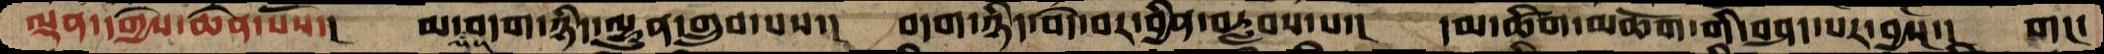ལྡན་དགྱེས་ཆེན་པོས་། མ་འདས་བདག་ཉིད་ལྷུན་གྲུབ་པས་། བདག་ཉིད་བདེ་བར་བྱིན་བརླབས་པ་། དམ་ཚིག་མཆོག་གི་བཤད་པར་བྱས་། གང་
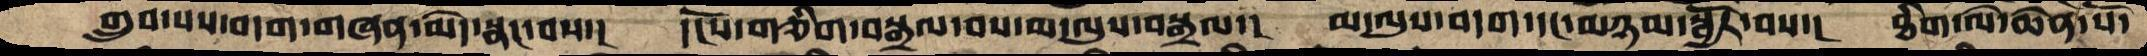གྲུབ་པས་བདག་གཞན་མེད་སྣང་བས་།  དངོས་གཅིག་བསྒྲལ་བས་མ་ལུས་བསྒྲལ་།  མ་ལུས་བདག་དང་མཉམ་སྦྱོར་བས་།  ཐིག་ལེ་ཆེན་པོ་
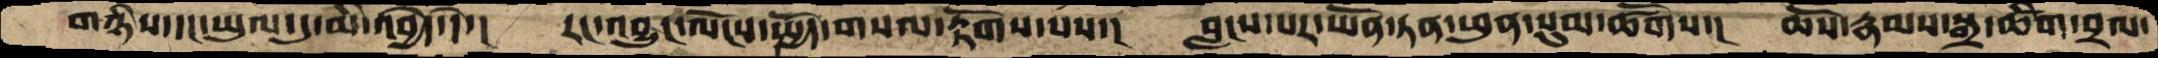གཉིས་དང་ཡུལ་དུ་མི་འབྱདེ་དེ་།   རང་འབྱུང་ལོངས་སྤྱོད་གསལ་རྟོགས་པས་།   བླངས་པར་ཡོན་ཏན་ཕུན་སུམ་ཚོགས་།  ཆོས་རྣམས་སྒྲ་ཚིག་བྲལ་
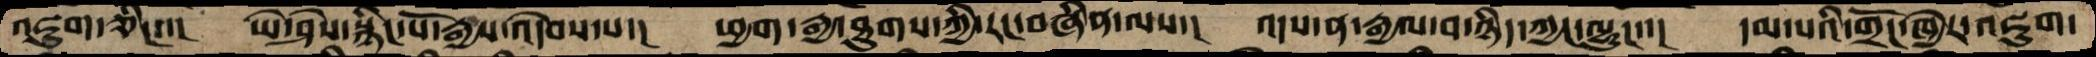འཇུག་ཅིང་་།  ཡེ་ཤེས་སྙིང་པོ་རྒྱས་འདེབས་པ་།  ཕྱག་རྒྱ་ཐུགས་ཀྱི་རང་བཞིན་ལས་།  འདས་ན་རྒྱལ་བ་ཉིད་ཀྱང་ལྷུང་་།  དམ་པའི་གྲོང་ཁྱེར་འཇུག་
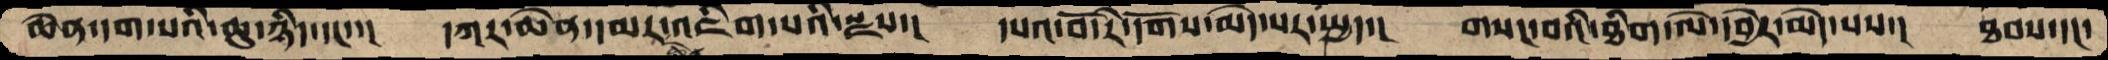ཆེན་དག་པའི་ཆུ་ཉིད་དང་་། དཀར་ཆེན་དམར་ཆེན་འཇིག་པའི་སྫས་། དཔའ་བོ་རི་དོགས་མེད་པར་སྤྱད་། གསང་བའི་ཐིག་ལེ་དབྱེར་མེད་པས་། ཐབས་དང་
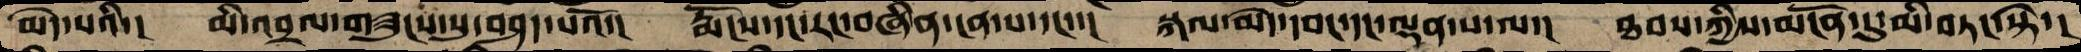མེད་པའི་།  མི་འབྲལ་གཟུངས་སུ་བཤད་པའོ་།  རྨོངས་དང་རང་བཞིན་ངན་པ་དང་་།  སྐལ་མེད་དབང་དང་ལྡན་པ་ལ་།  ཐབས་ཀྱིས་མངོན་དུ་མི་བཏང་སྟེ་།
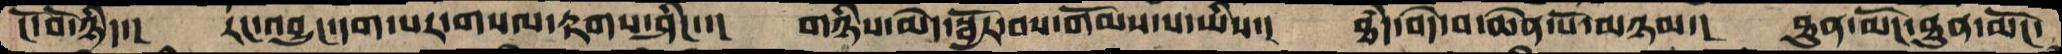ངོ་བོ་ཉིད་།  རང་འབྱུང་དག་པར་གསལ་རྟགས་ཤིང་་།  གཉིས་མེད་སྦྱོར་བས་གོམས་པ་ཡིས་།  ཐདཾ་བདེ་བ་ཆེན་པོ་མཉམ་།  ཐུན་མོང་ཐུན་མོང་
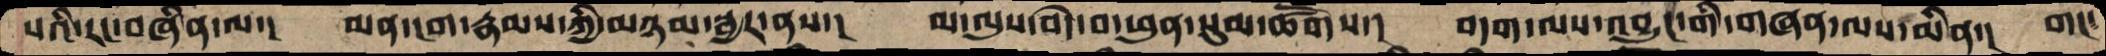པའི་རང་བཞིན་ལ་།  མན་ངག་རྣམས་ཀྱི་མཉམ་སྦྱར་ནས་།  མ་ལུས་བདེ་བ་ཕུན་སུམ་ཚོགས་།  བདག་ལས་འབྱུང་གི་གཞན་ལས་མིན་།  གང་
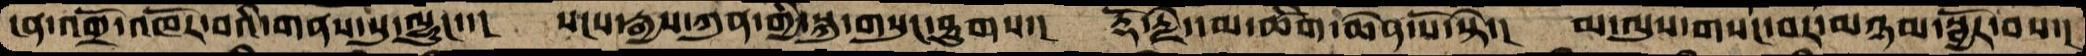ངན་འགྲོ་འཁོར་བའི་གནས་སུ་ལྷུང་་།  སངས་རྒྱས་ཀུན་གྱི་སྐུ་གསུང་ཐུགས་།  རྡོ་རྗེ་དམ་ཚིག་ཆེན་པོ་སྟེ་།  མ་ལུས་གསང་བར་མཉམ་སྦྱོར་བས་།
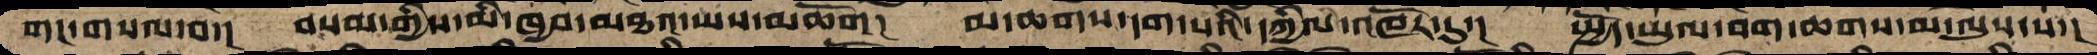གང་གསལ་བ་།  བསམ་གྱིས་མི་ཁྱབ་མཐའ་ཡས་མཆོག།  མ་ཆགས་དག་པའི་དཀྱིལ་འཁོར་དུ་།  སྤྱོད་ཡུལ་བག་ཆགས་མ་ལུས་པ་།
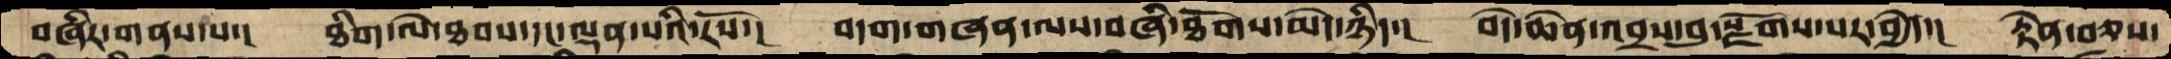བཞིར་གནས་པ་།  ཐིག་ལེ་ཐབས་དང་ལྡན་པའི་རོས་།  བདག་གཞན་ལས་བཞི་ཐོགས་མེད་ཉིད་།  བདེ་ཆེན་འབྲས་བུ་སྫོགས་པར་བྱེད་།  རྟེན་བཅས་
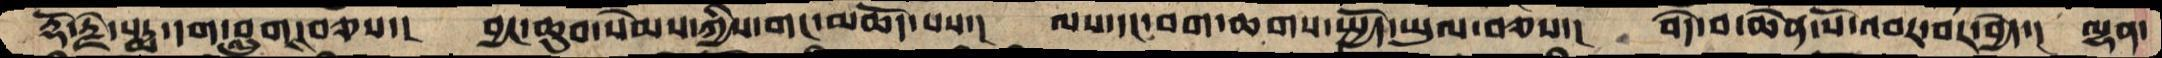རྡོ་རྗེ་པདྨ་དག་བླུག་བཅས་།  བྱང་ཆུབ་སེམས་ཀྱིས་གང་མཆོད་པས་།  ལས་དང་བག་ཆགས་སྤྱོད་ཡུལ་བཅས་།  བདེ་བ་ཆེན་པོ་འབར་བར་བྱེད་།  ལྷན་
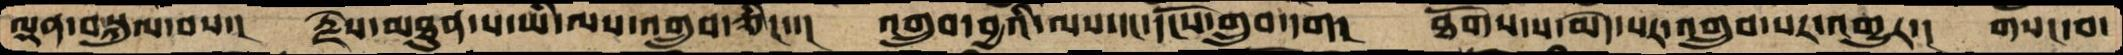ལྡན་བསྐུལ་བས་།  རྗེས་མཐུན་པ་ཡི་ལས་འགྲུབ་ཅིང་་།  འགྲུབ་བྱའི་ལས་དང་དངོས་གྲུབ་དག།  ཐོགས་པ་མེད་པར་འགྲུབ་པར་འགྱུར་།  གསང་བ་
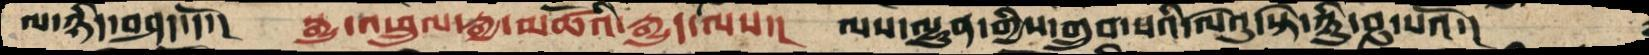ལ་ཉིད་བཤད་དོ་།  སྒྱུ་འཕྲུལ་རྒྱ་མཚོའི་རྒྱུད་ལས་།  ལས་ལྷུན་གྱིས་གྲུབ་པའི་ལེའུ་སྟེ་ཉི་ཤུ་པའོ་།
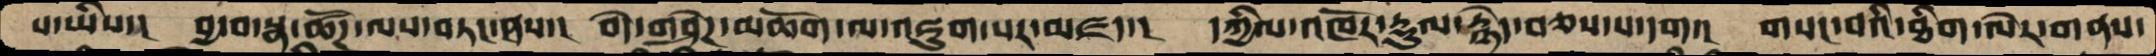པ་ཡིས་།  བྱ་བ་སྣ་ཚོགས་ལས་བཏང་ནས་།  བདེ་གཤེཌ་མཆོག་ལ་འཇུག་པར་མཛད་།  དཀྱིལ་འཁོར་རྡུལ་རྙེད་བཅས་པ་དག་།  གསང་བའི་ཐིག་ལེར་གནས་
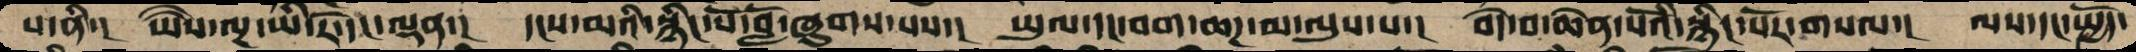པ་ནི་།  ཡཻས་ལྔ་ཡི་རོ་དང་ལྡན་།  དངས་མའི་སྙིང་པོ་བློ་ཞུགས་པས་།  ཡུལ་དང་བག་ཆཌ་མ་ལུས་པ་།  བདེ་བ་ཆེན་པོའི་སྙིང་པོར་གསལ་།  ལས་དང་སྤྱོད་
